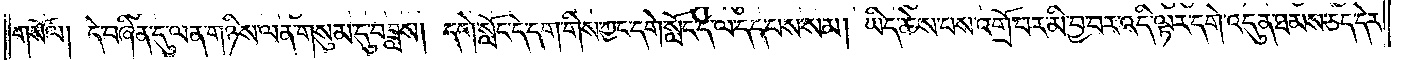གསོལ། དེ་བཞིན་དུ་ལན་གཉིས་ལན་གསུམ་དུ་བཟླས། དགེ་སློང་དེ་དག་གིས་ཀྱང་དགེ་སློང་དེ་ལ་དད་པས་སམ། ཡིད་ཆེས་པས་འགྲོ་བར་མི་བྱ་བར་འདི་ལྟར་དགེ་འདུན་ཐམས་ཅད་དེར་
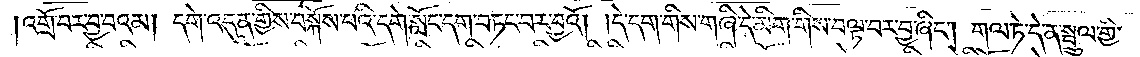།འགྲོ་བར་བྱ་བའམ། དགེ་འདུན་གྱིས་བསྐོས་པའི་དགེ་སློང་དག་བཏང་བར་བྱའོ། །དེ་དག་གིས་གཞི་དེ་མིག་གིས་བལྟ་བར་བྱ་ཞིང༌། གལ་ཏེ་དེ་ན་སྦྲུལ་གྱི་
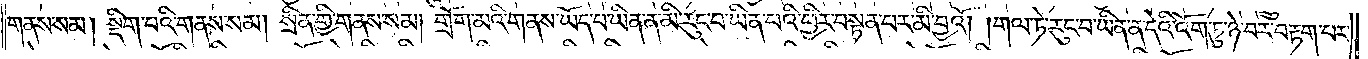གནས་སམ། སྡིག་པའི་གནས་སམ། སྲིན་གྱི་གནས་སམ། གྲོག་མའི་གནས་ཡོད་པ་ཡིན་ན་མི་རུང་བ་ཡིན་པའི་ཕྱིར་བསྟན་པར་མི་བྱའོ། །གལ་ཏེ་རུང་བ་ཡིན་ན་དེའི་འོག་ཏུ་ཉེ་བར་བརྟག་པར་
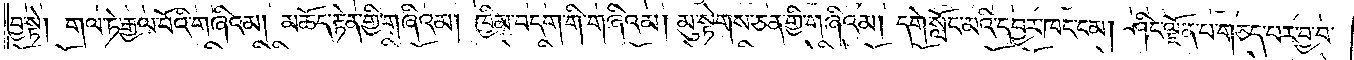བྱ་སྟེ། གལ་ཏེ་རྒྱལ་པོའི་གཞིའམ། མཆོད་རྟེན་གྱི་གཞིའམ། ཁྱིམ་བདག་གི་གཞིའམ། མུ་སྟེགས་ཅན་གྱི་གཞིའམ། དགེ་སློང་མའི་དབྱར་ཁང་ངམ། ཤིང་ལྗོན་པ་གཅད་པར་བྱ་བ་
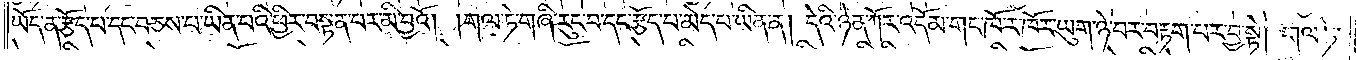ཡོད་ན་རྩོད་པ་དང་བཅས་པ་ཡིན་པའི་ཕྱིར་བསྟན་པར་མི་བྱའོ། །གལ་ཏེ་གཞི་རུང་བ་དང་རྩོད་པ་མེད་པ་ཡིན་ན། དེའི་ཉེན་ཀོར་འདོམ་གང་ཁོ་ར་ཁོར་ཡུག་ཉེ་བར་བརྟག་པར་བྱ་སྟེ། གལ་ཏེ་
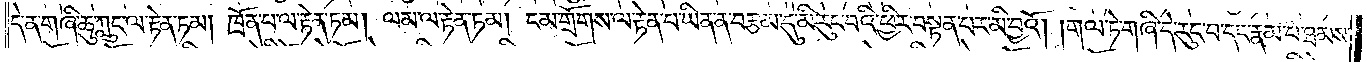དེ་ན་གཞི་ཆུ་ཀླུང་ལ་རྟེན་ཏམ། ཁྲོན་པ་ལ་རྟེན་ཏམ། ལམ་ལ་རྟེན་ཏམ། ངམ་གྲོགས་ལ་རྟེན་པ་ཡིན་ན་བརྩམ་དུ་མི་རུང་བའི་ཕྱིར་བསྟན་པར་མི་བྱའོ། །གལ་ཏེ་གཞི་དེ་རུང་བ་དང་རྣམ་པ་ཐམས་
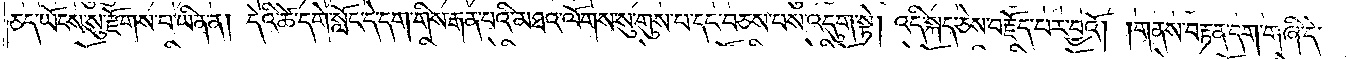ཅད་ཡོངས་སུ་རྫོགས་པ་ཡིན་ན། དེའི་ཚེ་དགེ་སློང་དེ་དག་གིས་རྒན་པའི་མཐའ་ལོགས་སུ་གུས་པ་དང་བཅས་པས་འདུག་སྟེ། འདི་སྐད་ཅེས་བརྗོད་པར་བྱའོ། །གནས་བརྟན་དག་གཞི་དེ་
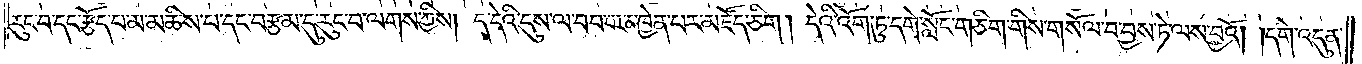རུང་བ་དང་རྩོད་པ་མ་མཆིས་པ་དང་བརྩམ་དུ་རུང་བ་ལགས་ཀྱིས། ད་དེའི་དུས་ལ་བབ་པར་མཁྱེན་པར་མཛོད་ཅིག། དེའི་འོག་ཏུ་དགེ་སློང་གཅིག་གིས་གསོལ་བ་བྱས་ཏེ་ལས་བྱའོ། །དགེ་འདུན་
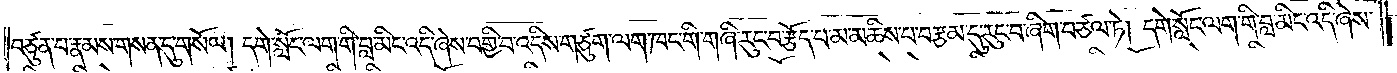བཙུན་པ་རྣམས་གསན་དུ་གསོལ། དགེ་སློང་ལག་གི་བླ་མིང་འདི་ཞེས་བགྱི་བ་འདིས་གཙུག་ལག་ཁང་གི་གཞི་རུང་བ་རྩོད་པ་མ་མཆིས་པ་བརྩམ་དུ་རུང་བ་ཞིག་བཙལ་ཏེ། དགེ་སློང་ལག་གི་བླ་མིང་འདི་ཞེས་
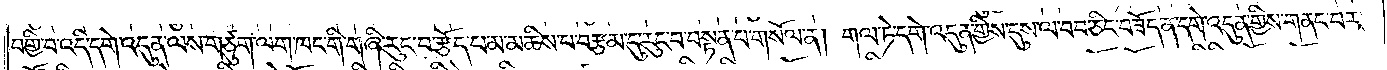བགྱི་བ་འདི་དགེ་འདུན་ལས་གཙུག་ལག་ཁང་གི་གཞི་རུང་བ་རྩོད་པ་མ་མཆིས་པ་བརྩམ་དུ་རུང་བ་བསྟན་པ་གསོལ་ན། གལ་ཏེ་དགེ་འདུན་གྱིས་དུས་ལ་བབ་ཅིང་བཟོད་ན་དགེ་འདུན་གྱིས་གནང་བར་
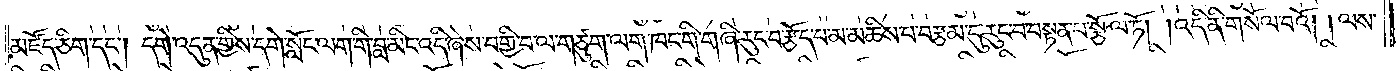མཛོད་ཅིག་དང༌། དགེ་འདུན་གྱིས་དགེ་སློང་ལག་གི་བླ་མིང་འདི་ཞེས་བགྱི་བ་ལ་གཙུག་ལག་ཁང་གི་གཞི་རུང་བ་རྩོད་པ་མ་མཆིས་པ་བརྩམ་དུ་རུང་བ་བསྟན་པ་སྩོལ་ཏོ། །འདི་ནི་གསོལ་བའོ། །ལས་
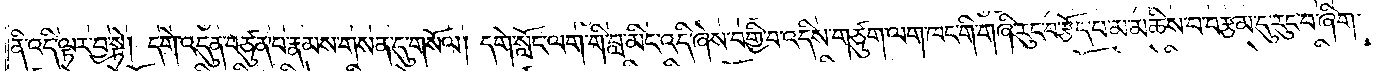ནི་འདི་ལྟར་བྱ་སྟེ། དགེ་འདུན་བཙུན་པ་རྣམས་གསན་དུ་གསོལ། དགེ་སློང་ལག་གི་བླ་མིང་འདི་ཞེས་བགྱི་བ་འདིས་གཙུག་ལག་ཁང་གི་གཞི་རུང་བ་རྩོད་པ་མ་མཆིས་པ་བརྩམ་དུ་རུང་བ་ཞིག་
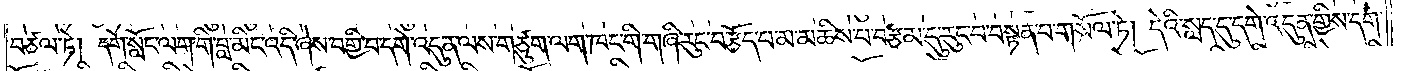བཙལ་ཏེ། དགེ་སློང་ལག་གི་བླ་མིང་འདི་ཞེས་བགྱི་བ་དགེ་འདུན་ལས་གཙུག་ལག་ཁང་གི་གཞི་རུང་བ་རྩོད་པ་མ་མཆིས་པ་བརྩམ་དུ་རུང་བ་བསྟན་པ་གསོལ་ཏེ། དེའི་སླད་དུ་དགེ་འདུན་གྱིས་དགེ་
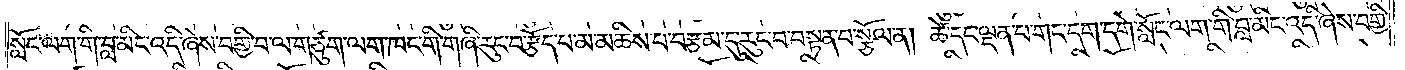སློང་ལག་གི་བླ་མིང་འདི་ཞེས་བགྱི་བ་ལ་གཙུག་ལག་ཁང་གི་གཞི་རུང་བ་རྩོད་པ་མ་མཆིས་པ་བརྩམ་དུ་རུང་བ་བསྟན་པ་སྩོལ་ན། ཚེ་དང་ལྡན་པ་གང་དག་དགེ་སློང་ལག་གི་བླ་མིང་འདི་ཞེས་བགྱི་
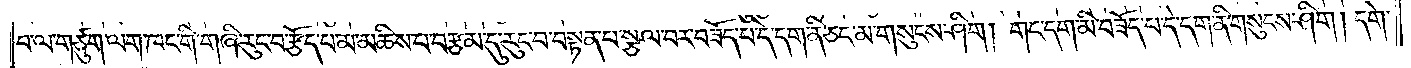བ་ལ་གཙུག་ལག་ཁང་གི་གཞི་རུང་བ་རྩོད་པ་མ་མཆིས་པ་བརྩམ་དུ་རུང་བ་བསྟན་པ་སྩལ་བར་བཟོད་པ་དེ་དག་ནི་ཅང་མ་གསུངས་ཤིག། གང་དག་མི་བཟོད་པ་དེ་དག་ནི་གསུངས་ཤིག། དགེ་
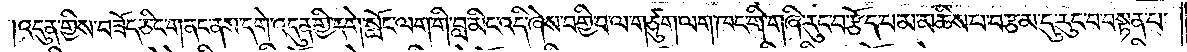འདུན་གྱིས་བཟོད་ཅིང་གནང་ནས་དགེ་འདུན་གྱི་དགེ་སློང་ལག་གི་བླ་མིང་འདི་ཞེས་བགྱི་བ་ལ་གཙུག་ལག་ཁང་གི་གཞི་རུང་བ་རྩོད་པ་མ་མཆིས་པ་བརྩམ་དུ་རུང་བ་བསྟན་པ་
